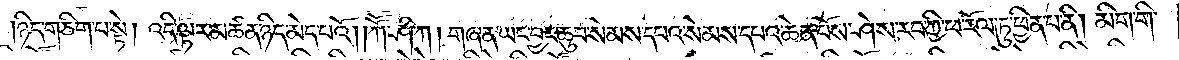ཉིད་གཅིག་པ་སྟེ། འདི་ལྟར་མཚན་ཉིད་མེད་པའོ། །ཀཽ་ཤི་ཀ། གཞན་ཡང་བྱང་ཆུབ་སེམས་དཔའ་སེམས་དཔའ་ཆེན་པོས་ཤེས་རབ་ཀྱི་ཕ་རོལ་ཏུ་ཕྱིན་པ་ནི། མིག་གི་
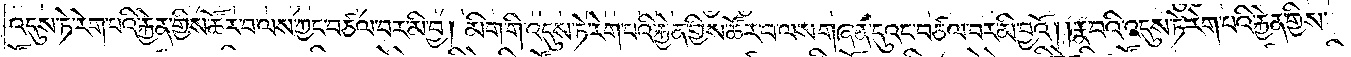འདུས་ཏེ་རེག་པའི་རྐྱེན་གྱིས་ཚོར་བ་ལས་ཀྱང་བཙལ་བར་མི་བྱ། མིག་གི་འདུས་ཏེ་རེག་པའི་རྐྱེན་གྱིས་ཚོར་བ་ལས་གཞན་དུའང་བཙལ་བར་མི་བྱའོ། །རྣ་བའི་འདུས་ཏེ་རེག་པའི་རྐྱེན་གྱིས་
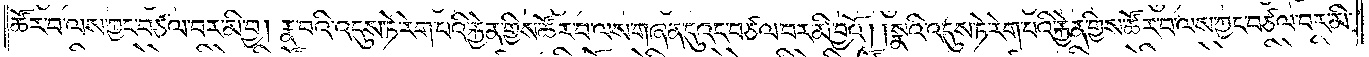ཚོར་བ་ལས་ཀྱང་བཙལ་བར་མི་བྱ། རྣ་བའི་འདུས་ཏེ་རེག་པའི་རྐྱེན་གྱིས་ཚོར་བ་ལས་གཞན་དུའང་བཙལ་བར་མི་བྱའོ། །སྣའི་འདུས་ཏེ་རེག་པའི་རྐྱེན་གྱིས་ཚོར་བ་ལས་ཀྱང་བཙལ་བར་མི་
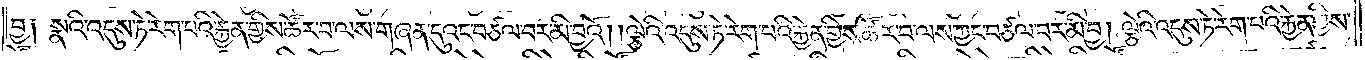བྱ། སྣའི་འདུས་ཏེ་རེག་པའི་རྐྱེན་གྱིས་ཚོར་བ་ལས་གཞན་དུའང་བཙལ་བར་མི་བྱའོ། །ལྕེའི་འདུས་ཏེ་རེག་པའི་རྐྱེན་གྱིས་ཚོར་བ་ལས་ཀྱང་བཙལ་བར་མི་བྱ། ལྕེའི་འདུས་ཏེ་རེག་པའི་རྐྱེན་གྱིས་
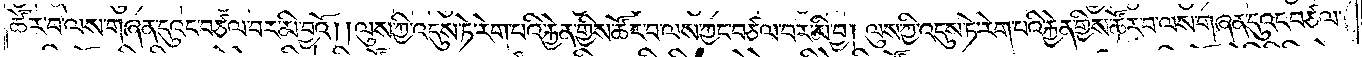ཚོར་བ་ལས་གཞན་དུའང་བཙལ་བར་མི་བྱའོ། །ལུས་ཀྱི་འདུས་ཏེ་རེག་པའི་རྐྱེན་གྱིས་ཚོར་བ་ལས་ཀྱང་བཙལ་བར་མི་བྱ། ལུས་ཀྱི་འདུས་ཏེ་རེག་པའི་རྐྱེན་གྱིས་ཚོར་བ་ལས་གཞན་དུའང་བཙལ་
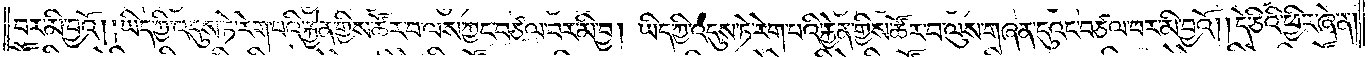བར་མི་བྱའོ། །ཡིད་ཀྱི་འདུས་ཏེ་རེག་པའི་རྐྱེན་གྱིས་ཚོར་བ་ལས་ཀྱང་བཙལ་བར་མི་བྱ། །ཡིད་ཀྱི་འདུས་ཏེ་རེག་པའི་རྐྱེན་གྱིས་ཚོར་བ་ལས་གཞན་དུའང་བཙལ་བར་མི་བྱའོ། །དེ་ཅིའི་ཕྱིར་ཞེ་ན།
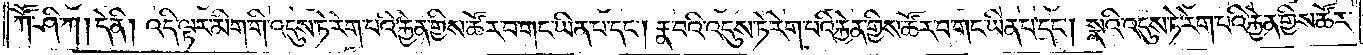ཀཽ་ཤི་ཀ། དེ་ནི། འདི་ལྟར་མིག་གི་འདུས་ཏེ་རེག་པའི་རྐྱེན་གྱིས་ཚོར་བ་གང་ཡིན་པ་དང༌། རྣ་བའི་འདུས་ཏེ་རེག་པའི་རྐྱེན་གྱིས་ཚོར་བ་གང་ཡིན་པ་དང༌། སྣའི་འདུས་ཏེ་རེག་པའི་རྐྱེན་གྱིས་ཚོར་
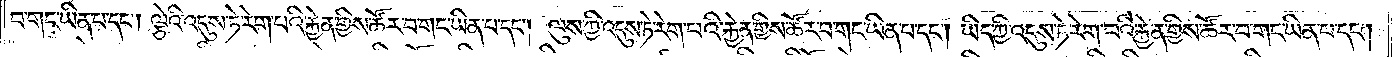བ་གང་ཡིན་པ་དང༌། ལྕེའི་འདུས་ཏེ་རེག་པའི་རྐྱེན་གྱིས་ཚོར་བ་གང་ཡིན་པ་དང༌། ལུས་ཀྱི་འདུས་ཏེ་རེག་པའི་རྐྱེན་གྱིས་ཚོར་བ་གང་ཡིན་པ་དང༌། ཡིད་ཀྱི་འདུས་ཏེ་རེག་པའི་རྐྱེན་གྱིས་ཚོར་བ་གང་ཡིན་པ་དང༌།
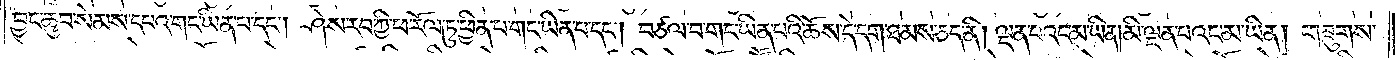བྱང་ཆུབ་སེམས་དཔའ་གང་ཡིན་པ་དང༌། ཤེས་རབ་ཀྱི་ཕ་རོལ་ཏུ་ཕྱིན་པ་གང་ཡིན་པ་དང༌། བཙལ་བ་གང་ཡིན་པའི་ཆོས་དེ་དག་ཐམས་ཅད་ནི། ལྡན་པའང་མ་ཡིན་མི་ལྡན་པའང་མ་ཡིན། གཟུགས་
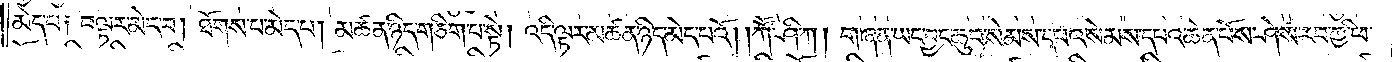མེད་པ། བལྟར་མེད་པ། ཐོགས་པ་མེད་པ། མཚན་ཉིད་གཅིག་པ་སྟེ། འདི་ལྟར་མཚན་ཉིད་མེད་པའོ། །ཀཽ་ཤི་ཀ། གཞན་ཡང་བྱང་ཆུབ་སེམས་དཔའ་སེམས་དཔའ་ཆེན་པོས་ཤེས་རབ་ཀྱི་ཕ་
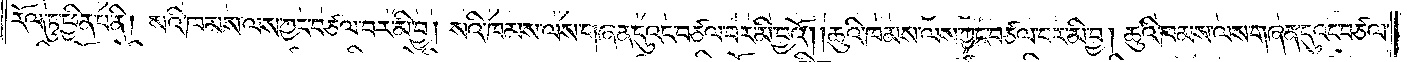རོལ་ཏུ་ཕྱིན་པ་ནི། སའི་ཁམས་ལས་ཀྱང་བཙལ་བར་མི་བྱ། སའི་ཁམས་ལས་གཞན་དུའང་བཙལ་བར་མི་བྱའོ། །ཆུའི་ཁམས་ལས་ཀྱང་བཙལ་བར་མི་བྱ། ཆུའི་ཁམས་ལས་གཞན་དུའང་བཙལ་
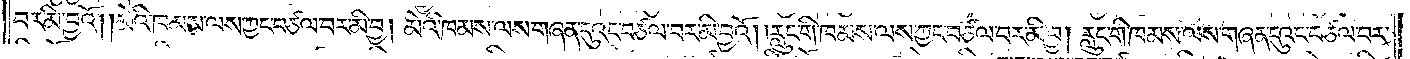བར་མི་བྱའོ། །མེའི་ཁམས་ལས་ཀྱང་བཙལ་བར་མི་བྱ། མེའི་ཁམས་ལས་གཞན་དུའང་བཙལ་བར་མ་བྱའོ། །རླུང་གི་ཁམས་ལས་ཀྱང་བཙལ་བར་མི་བྱ། རླུང་གི་ཁམས་ལས་གཞན་དུའང་བཙལ་བར་
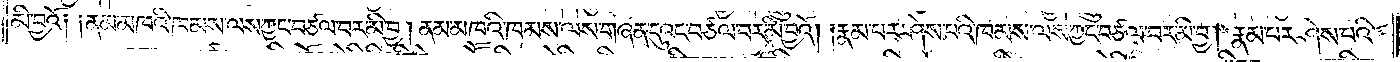མི་བྱའོ། །ནམ་མཁའི་ཁམས་ལས་ཀྱང་བཙལ་བར་མི་བྱ། ནམ་མཁའི་ཁམས་ལས་གཞན་དུའང་བཙལ་བར་མི་བྱའོ། །རྣམ་པར་ཤེས་པའི་ཁམས་ལས་ཀྱང་བཙལ་བར་མི་བྱ། རྣམ་པར་ཤེས་པའི་
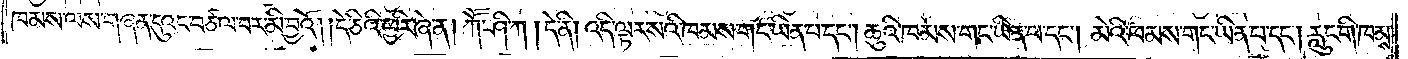ཁམས་ལས་གཞན་དུའང་བཙལ་བར་མི་བྱའོ། །དེ་ཅིའི་ཕྱིར་ཞེ་ན། ཀཽ་ཤི་ཀ །དེ་ནི། འདི་ལྟར་སའི་ཁམས་གང་ཡིན་པ་དང༌། ཆུའི་ཁམས་གང་ཡིན་པ་དང༌། མེའི་ཁམས་གང་ཡིན་པ་དང༌། རླུང་གི་ཁམས་
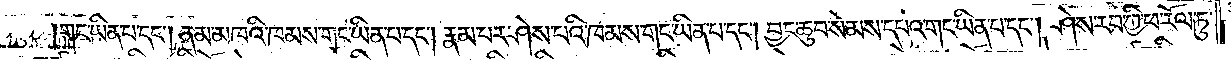གང་ཡིན་པ་དང༌། ནམ་མཁའི་ཁམས་གང་ཡིན་པ་དང༌། རྣམ་པར་ཤེས་པའི་ཁམས་གང་ཡིན་པ་དང༌། བྱང་ཆུབ་སེམས་དཔའ་གང་ཡིན་པ་དང༌། ཤེས་རབ་ཀྱི་ཕ་རོལ་ཏུ་
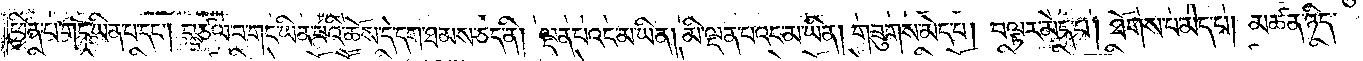ཕྱིན་པ་གང་ཡིན་པ་དང༌། བཙལ་བ་གང་ཡིན་པའི་ཆོས་དེ་དག་ཐམས་ཅད་ནི། ལྡན་པའང་མ་ཡིན་མི་ལྡན་པའང་མ་ཡིན། གཟུགས་མེད་པ། བལྟར་མེད་པ། ཐོགས་པ་མེད་པ། མཚན་ཉིད་
